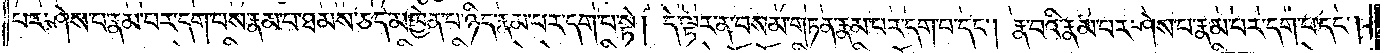པར་ཤེས་པ་རྣམ་པར་དག་པས་རྣམ་པ་ཐམས་ཅད་མཁྱེན་པ་ཉིད་རྣམ་པར་དག་པ་སྟེ། དེ་ལྟར་ན་བསམ་གཏན་རྣམ་པར་དག་པ་དང༌། རྣ་བའི་རྣམ་པར་ཤེས་པ་རྣམ་པར་དག་པ་དང༌།
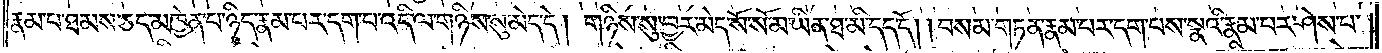རྣམ་པ་ཐམས་ཅད་མཁྱེན་པ་ཉིད་རྣམ་པར་དག་པ་འདི་ལ་གཉིས་སུ་མེད་དེ། གཉིས་སུ་བྱར་མེད་སོ་སོ་མ་ཡིན་ཐ་མི་དད་དོ། །བསམ་གཏན་རྣམ་པར་དག་པས་སྣའི་རྣམ་པར་ཤེས་པ་
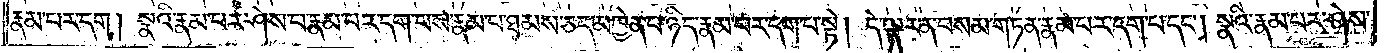རྣམ་པར་དག། སྣའི་རྣམ་པར་ཤེས་པ་རྣམ་པར་དག་པས་རྣམ་པ་ཐམས་ཅད་མཁྱེན་པ་ཉིད་རྣམ་པར་དག་པ་སྟེ། དེ་ལྟར་ན་བསམ་གཏན་རྣམ་པར་དག་པ་དང༌། སྣའི་རྣམ་པར་ཤེས་
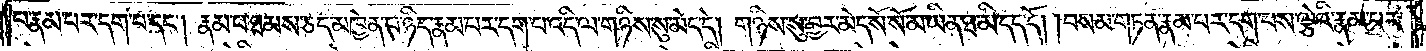པ་རྣམ་པར་དག་པ་དང༌། རྣམ་པ་ཐམས་ཅད་མཁྱེན་པ་ཉིད་རྣམ་པར་དག་པ་འདི་ལ་གཉིས་སུ་མེད་དེ། གཉིས་སུ་བྱར་མེད་སོ་སོ་མ་ཡིན་ཐ་མི་དད་དོ། །བསམ་གཏན་རྣམ་པར་དག་པས་ལྕེའི་རྣམ་པར་
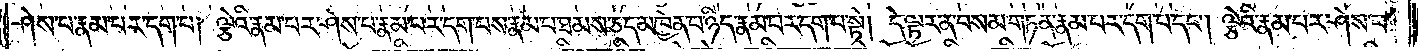ཤེས་པ་རྣམ་པར་དག་པ། ལྕེའི་རྣམ་པར་ཤེས་པ་རྣམ་པར་དག་པས་རྣམ་པ་ཐམས་ཅད་མཁྱེན་པ་ཉིད་རྣམ་པར་དག་པ་སྟེ། དེ་ལྟར་ན་བསམ་གཏན་རྣམ་པར་དག་པ་དང༌། ལྕེའི་རྣམ་པར་ཤེས་པ་
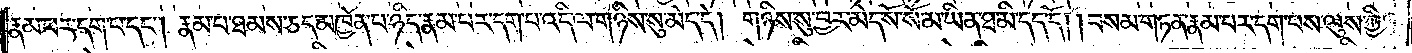རྣམ་པར་དག་པ་དང༌། རྣམ་པ་ཐམས་ཅད་མཁྱེན་པ་ཉིད་རྣམ་པར་དག་པ་འདི་ལ་གཉིས་སུ་མེད་དེ། གཉིས་སུ་བྱར་མེད་སོ་སོ་མ་ཡིན་ཐ་མི་དད་དོ། །བསམ་གཏན་རྣམ་པར་དག་པས་ལུས་ཀྱི་
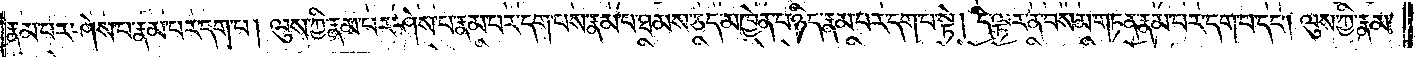རྣམ་པར་ཤེས་པ་རྣམ་པར་དག་པ། ལུས་ཀྱི་རྣམ་པར་ཤེས་པ་རྣམ་པར་དག་པས་རྣམ་པ་ཐམས་ཅད་མཁྱེན་པ་ཉིད་རྣམ་པར་དག་པ་སྟེ། དེ་ལྟར་ན་བསམ་གཏན་རྣམ་པར་དག་པ་དང༌། ལུས་ཀྱི་རྣམ་
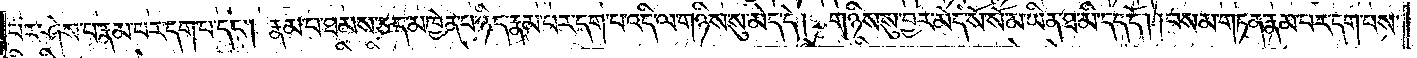པར་ཤེས་པ་རྣམ་པར་དག་པ་དང༌། རྣམ་པ་ཐམས་ཅད་མཁྱེན་པ་ཉིད་རྣམ་པར་དག་པ་འདི་ལ་གཉིས་སུ་མེད་དེ། གཉིས་སུ་བྱར་མེད་སོ་སོ་མ་ཡིན་ཐ་མི་དད་དོ། །བསམ་གཏན་རྣམ་པར་དག་པས་
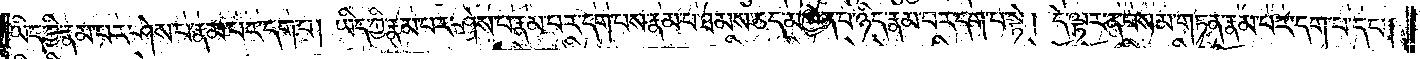ཡིད་ཀྱི་རྣམ་པར་ཤེས་པ་རྣམ་པར་དག་པ། ཡིད་ཀྱི་རྣམ་པར་ཤེས་པ་རྣམ་པར་དག་པས་རྣམ་པ་ཐམས་ཅད་མཁྱེན་པ་ཉིད་རྣམ་པར་དག་པ་སྟེ། དེ་ལྟར་ན་བསམ་གཏན་རྣམ་པར་དག་པ་དང༌།
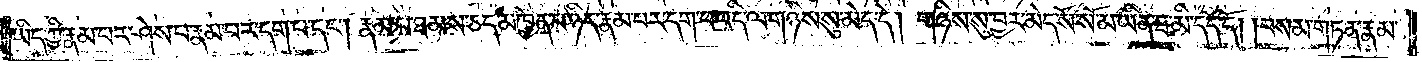ཡིད་ཀྱི་རྣམ་པར་ཤེས་པ་རྣམ་པར་དག་པ་དང༌། རྣམ་པ་ཐམས་ཅད་མཁྱེན་པ་ཉིད་རྣམ་པར་དག་པ་འདི་ལ་གཉིས་སུ་མེད་དེ། གཉིས་སུ་བྱར་མེད་སོ་སོ་མ་ཡིན་ཐ་མི་དད་དོ། །བསམ་གཏན་རྣམ་
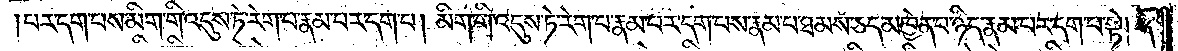པར་དག་པས་མིག་གི་འདུས་ཏེ་རེག་པ་རྣམ་པར་དག་པ། མིག་གི་འདུས་ཏེ་རེག་པ་རྣམ་པར་དག་པས་རྣམ་པ་ཐམས་ཅད་མཁྱེན་པ་ཉིད་རྣམ་པར་དག་པ་སྟེ། དེ་
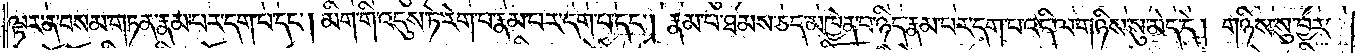ལྟར་ན་བསམ་གཏན་རྣམ་པར་དག་པ་དང༌། མིག་གི་འདུས་ཏེ་རེག་པ་རྣམ་པར་དག་པ་དང༌། རྣམ་པ་ཐམས་ཅད་མཁྱེན་པ་ཉིད་རྣམ་པར་དག་པ་འདི་ལ་གཉིས་སུ་མེད་དེ། གཉིས་སུ་བྱར་
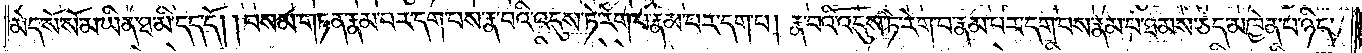མེད་སོ་སོ་མ་ཡིན་ཐ་མི་དད་དོ། །བསམ་གཏན་རྣམ་པར་དག་པས་རྣ་བའི་འདུས་ཏེ་རེག་པ་རྣམ་པར་དག་པ། རྣ་བའི་འདུས་ཏེ་རེག་པ་རྣམ་པར་དག་པས་རྣམ་པ་ཐམས་ཅད་མཁྱེན་པ་ཉིད་
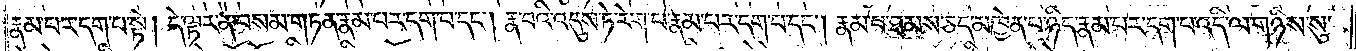རྣམ་པར་དག་པ་སྟེ། དེ་ལྟར་ན་བསམ་གཏན་རྣམ་པར་དག་པ་དང༌། རྣ་བའི་འདུས་ཏེ་རེག་པ་རྣམ་པར་དག་པ་དང༌། རྣམ་པ་ཐམས་ཅད་མཁྱེན་པ་ཉིད་རྣམ་པར་དག་པ་འདི་ལ་གཉིས་སུ་
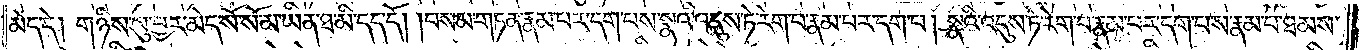མེད་དེ། གཉིས་སུ་བྱར་མེད་སོ་སོ་མ་ཡིན་ཐ་མི་དད་དོ། །བསམ་གཏན་རྣམ་པར་དག་པས་སྣའི་འདུས་ཏེ་རེག་པ་རྣམ་པར་དག་པ། སྣའི་འདུས་ཏེ་རེག་པ་རྣམ་པར་དག་པས་རྣམ་པ་ཐམས་
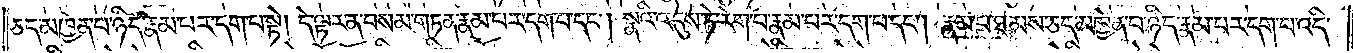ཅད་མཁྱེན་པ་ཉིད་རྣམ་པར་དག་པ་སྟེ། དེ་ལྟར་ན་བསམ་གཏན་རྣམ་པར་དག་པ་དང༌། སྣའི་འདུས་ཏེ་རེག་པ་རྣམ་པར་དག་པ་དང༌། རྣམ་པ་ཐམས་ཅད་མཁྱེན་པ་ཉིད་རྣམ་པར་དག་པ་འདི་
